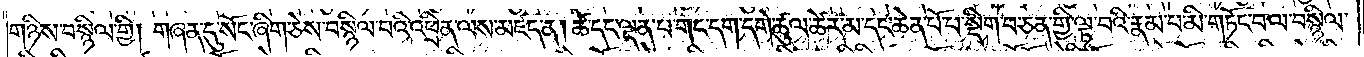གཉིས་བསྙིལ་གྱི། གཞན་དུ་སོང་ཞིག་ཅེས་བསྙིལ་བའི་འཕྲིན་ལས་མཛད་ན། ཚེ་དང་ལྡན་པ་གང་དག་དགེ་ཚུལ་ཚེར་མ་དང་ཆེན་པོ་པ་སྡིག་པ་ཅན་གྱི་ལྟ་བའི་རྣམ་པ་མི་གཏོང་བ་ལ་བསྙིལ་
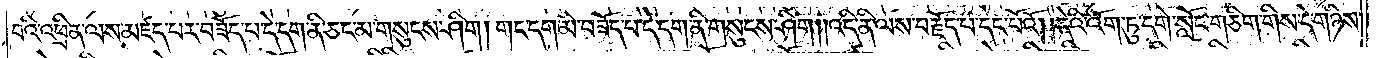བའི་འཕྲིན་ལས་མཛད་པར་བཟོད་པ་དེ་དག་ནི་ཅང་མ་གསུངས་ཤིག །གང་དག་མི་བཟོད་པ་དེ་དག་ནི་གསུངས་ཤིག །འདི་ནི་ལས་བརྗོད་པ་དང་པོའོ། །དེའི་འོག་ཏུ་དགེ་སློང་གཅིག་གིས་དེ་གཉིས་
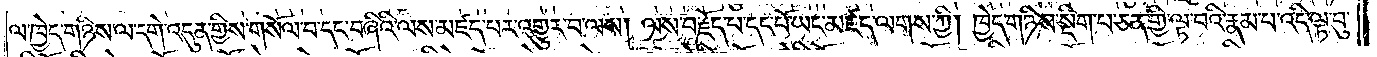ལ་ཁྱེད་གཉིས་ལ་དགེ་འདུན་གྱིས་གསོལ་བ་དང་བཞིའི་ལས་མཛད་པར་འགྱུར་བ་ལས། ལས་བརྗོད་པ་དང་པོ་ཡང་མཛད་ལགས་ཀྱི། ཁྱེད་གཉིས་སྡིག་པ་ཅན་གྱི་ལྟ་བའི་རྣམ་པ་འདི་ལྟ་བུ་
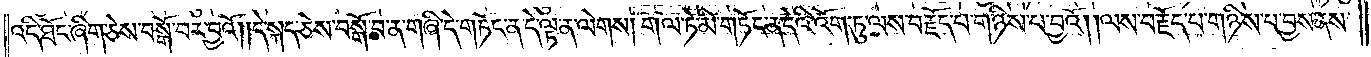འདི་ཐོང་ཞིག་ཅེས་བསྒོ་བར་བྱའོ། །དེ་སྐད་ཅེས་བསྒོ་བ་ན་གཞི་དེ་གཏོང་ན་དེ་ལྟ་ན་ལེགས། གལ་ཏེ་མི་གཏོང་ན་དེའི་འོག་ཏུ་ལས་བརྗོད་པ་གཉིས་པ་བྱའོ། །ལས་བརྗོད་པ་གཉིས་པ་བྱས་ནས་
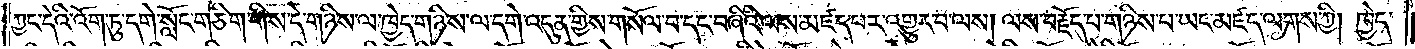ཀྱང་དེའི་འོག་ཏུ་དགེ་སློང་གཅིག་གིས་དེ་གཉིས་ལ་ཁྱེད་གཉིས་ལ་དགེ་འདུན་གྱིས་གསོལ་བ་དང་བཞིའི་ལས་མཛད་པར་འགྱུར་བ་ལས། ལས་བརྗོད་པ་གཉིས་པ་ཡང་མཛད་ལགས་ཀྱི། ཁྱེད་
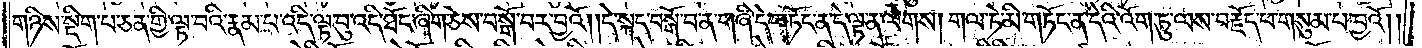གཉིས་སྡིག་པ་ཅན་གྱི་ལྟ་བའི་རྣམ་པ་འདི་ལྟ་བུ་འདི་ཐོང་ཞིག་ཅེས་བསྒོ་བར་བྱའོ། །དེ་སྐད་བསྒོ་བ་ན་གཞི་དེ་གཏོང་ན་དེ་ལྟ་ན་ལེགས། གལ་ཏེ་མི་གཏོང་ན་དེའི་འོག་ཏུ་ལས་བརྗོད་པ་གསུམ་པ་བྱའོ། །
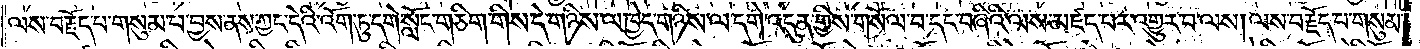ལས་བརྗོད་པ་གསུམ་པ་བྱས་ནས་ཀྱང་དེའི་འོག་ཏུ་དགེ་སློང་གཅིག་གིས་དེ་གཉིས་ལ་ཁྱེད་གཉིས་ལ་དགེ་འདུན་གྱིས་གསོལ་བ་དང་བཞིའི་ལས་མཛད་པར་འགྱུར་བ་ལས། ལས་བརྗོད་པ་གསུམ་
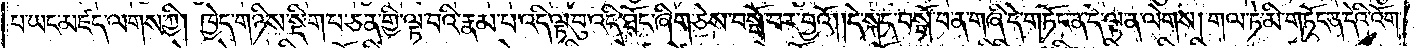པ་ཡང་མཛད་ལགས་ཀྱི། ཁྱེད་གཉིས་སྡིག་པ་ཅན་གྱི་ལྟ་བའི་རྣམ་པ་འདི་ལྟ་བུ་འདི་ཐོང་ཞིག་ཅེས་བསྒོ་བར་བྱའོ། །དེ་སྐད་བསྒོ་བ་ན་གཞི་དེ་གཏོང་ན་དེ་ལྟ་ན་ལེགས། གལ་ཏེ་མི་གཏོང་ན་དེའི་འོག་
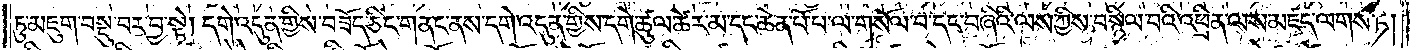ཏུ་མཇུག་བསྡུ་བར་བྱ་སྟེ། དགེ་འདུན་གྱིས་བཟོད་ཅིང་གནང་ནས་དགེ་འདུན་གྱིས་དགེ་ཚུལ་ཚེར་མ་དང་ཆེན་པོ་པ་ལ་གསོལ་བ་དང་བཞིའི་ལས་ཀྱིས་བསྙིལ་བའི་འཕྲིན་ལས་མཛད་ལགས་ཏེ།
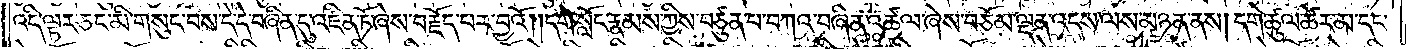འདི་ལྟར་ཅང་མི་གསུང་བས་དེ་དེ་བཞིན་དུ་འཛིན་ཏོ་ཞེས་བརྗོད་པར་བྱའོ། །དགེ་སློང་རྣམས་ཀྱིས་བཙུན་པ་བཀའ་བཞིན་འཚལ་ཞེས་བཅོམ་ལྡན་འདས་ལས་མཉན་ནས། དགེ་ཚུལ་ཚེར་མ་དང་
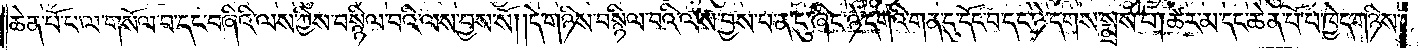ཆེན་པོ་པ་ལ་གསོལ་བ་དང་བཞིའི་ལས་ཀྱིས་བསྙིལ་བའི་ལས་བྱས་སོ། །དེ་གཉིས་བསྙིལ་བའི་ལས་བྱས་པ་ན་ངུ་ཞིང་ཉེ་དགའི་གན་དུ་དོང་བ་དང་ཉེ་དགས་སྨྲས་པ། ཚེར་མ་དང་ཆེན་པོ་པ་ཁྱེད་གཉིས་
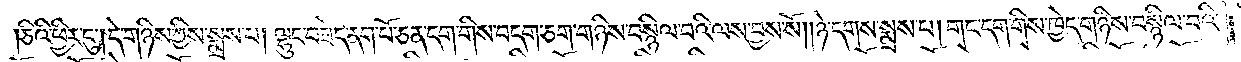ཅིའི་ཕྱིར་ངུ༌། དེ་གཉིས་ཀྱིས་སྨྲས་པ། ལྷུང་བཟེད་ནག་པོ་ཅན་དག་གིས་བདག་ཅག་གཉིས་བསྙིལ་བའི་ལས་བྱས་སོ། །ཉེ་དགས་སྨྲས་པ། གང་དག་གིས་ཁྱེད་གཉིས་བསྙིལ་བའི་
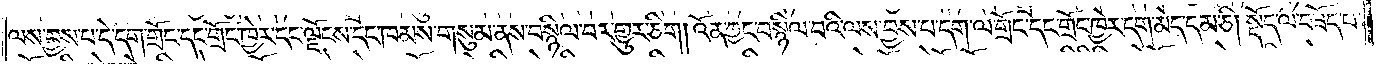ལས་བྱས་པ་དེ་དག་གྲོང་དང་གྲོང་ཁྱེར་དང་ལྗོངས་དང་ཁམས་གསུམ་ནས་བསྙིལ་བར་གྱུར་ཅིག །འོན་ཀྱང་བསྙིལ་བའི་ལས་བྱས་པ་དག་ལ་གྲོང་དང་གྲོང་ཁྱེར་དག་མེད་དམ་ཅི། སྡོད་ལ་བཟོད་པ་
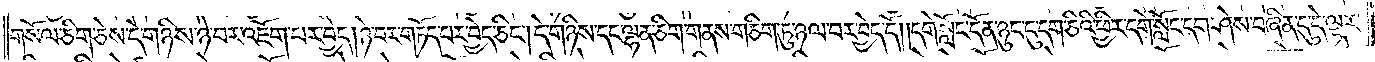གསོལ་ཅིག་ཅེས་དེ་གཉིས་ཉེ་བར་འཇོག་པར་བྱེད། ཉེ་བར་གཏོད་པར་བྱེད་ཅིང༌། དེ་གཉིས་དང་ལྷན་ཅིག་གནས་གཅིག་ཏུ་ཉལ་བར་བྱེད་དོ། །དགེ་སློང་དོན་ཉུང་ངུ་དག་ཅིའི་ཕྱིར་དགེ་སློང་དག་ཤེས་བཞིན་དུ་དེ་ལྟར་
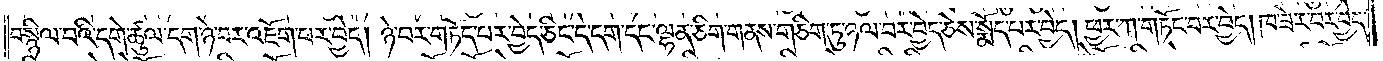བསྙིལ་བའི་དགེ་ཚུལ་དག་ཉེ་བར་འཇོག་པར་བྱེད། ཉེ་བར་གཏོད་པར་བྱེད་ཅིང་དེ་དག་དང་ལྷན་ཅིག་གནས་གཅིག་ཏུ་ཉལ་བར་བྱེད་ཅེས་སྨོད་པར་བྱེད། ཕྱར་ཀ་གཏོང་བར་བྱེད། ཁ་ཟེར་བར་བྱེད་
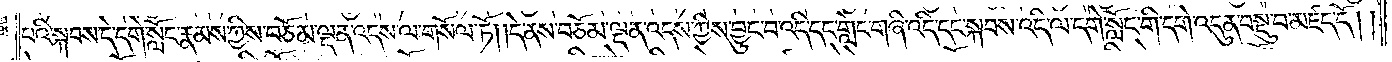པའི་སྐབས་དེ་དགེ་སློང་རྣམས་ཀྱིས་བཅོམ་ལྡན་འདས་ལ་གསོལ་ཏོ། །དེ་ནས་བཅོམ་ལྡན་འདས་ཀྱིས་བྱུང་བ་འདི་དང་གླེང་གཞི་འདི་དང་སྐབས་འདི་ལ་དགེ་སློང་གི་དགེ་འདུན་བསྡུ་བ་མཛད་དོ། །
